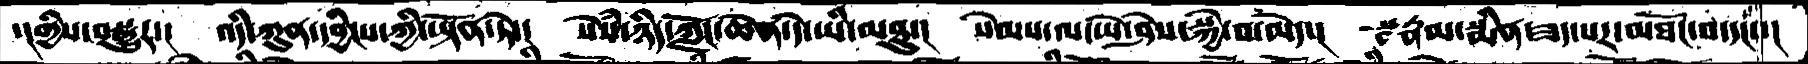་།གྱིས་བསྒྱུར་།  འདི་ཀུན་དབྱིངས་ཀྱི་ཡྟོན་ཏེ་།  སེཾས་ཉིད་ཀློང་ཆེན་དེ་ཡི་མཐུ་།  སེམས་ལ་ཡེ་ཤེས་སྐྱེ་བ་མེད་།  རྣམ་སྨིན་ཟད་པར་མཐོང་བ་དང་་།
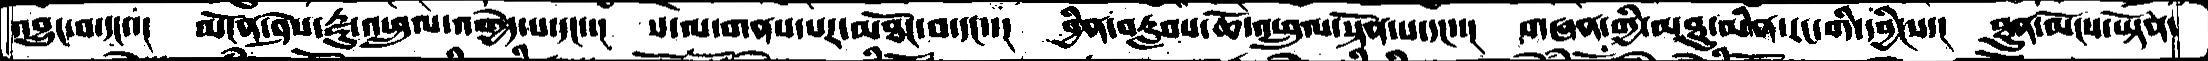འབྱུང་བ་དང་་།  མངོན་ཤེས་རྫུ་འཕྲུལ་འགྱེད་པ་དང་་།  ས་ལ་གནས་པར་མཐོང་བ་དང་་།  བྱིན་བརླབས་ཆོ་འཕྲུལ་སྟོན་པ་དང་་།  གཞན་གྱི་མཐུ་མིན་རང་གི་དབྱིངས་།  ཐུན་མོངས་ཡྟོན་
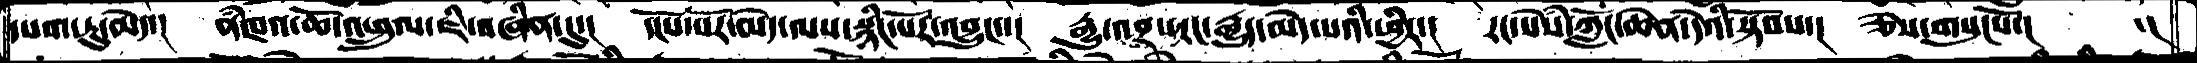དཔག་ཏུ་མེད་།  ནཾཁའ་ཆོ་འཕྲུལ་ཇི་བཞིན་དུ་།  དངོས་པོར་མེད་ལས་སྙིང་པོར་འབྱུང་།   རྒྱུ་འབྲས་ངང་རྒྱུད་མེད་པའི་ཕྱིར་།  རང་སེཾས་ཀློང་ཆེན་དེའི་སྟོབས་།  ཅེས་གསུངསོ་།    ་།
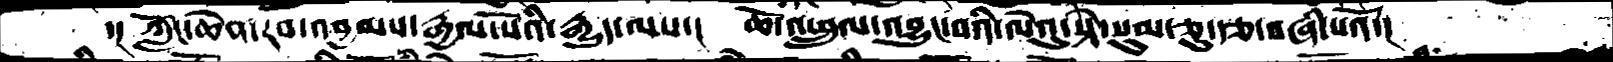་། ཀློང་ཆེན་རབ་འབྱམས་རྒྱལ་པོའི་རྒྱུད་ལས་།  ཆོ་འཕྲུལ་འབྱུང་བའི་ལེའུ་སྟེ་སུམ་ཅུ་རྩ་བཞི་པའོ་།
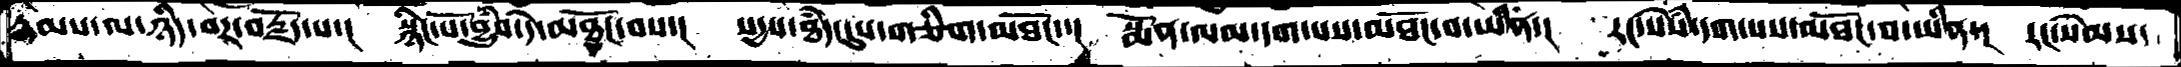རྣམས་ལ་ཉིད་བར་བརྗོད་པ་།  སྙིང་པོ་བྱུཾབ་དེ་མཐོང་བས་།  སདྱས་ཐཾད་དུས་གཅིག་མཐོང་།  སྨོན་ལམ་དག་པས་མཐོང་བ་ཡིན་།  རང་སེཾས་དག་པས་མཐོང་བ་ཡིན་།  རང་སེམས་
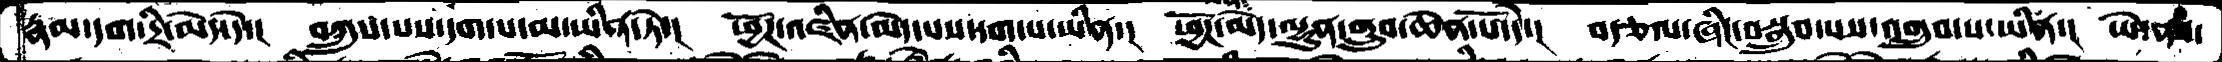རྣམ་དག་དྲི་མེད་དེ་།  བཀྲུས་པས་དག་པ་མ་ཡིན་ཏེ་།  ཕྱོཌ་འཛིན་མེད་པས་དག་པ་ཡིན་།  ཕྱོཌ་མེད་ལྷུན་གྲུབ་ཆེན་པོ་དེ་།  བརྩལ་ཞིང་བསྒྲུབ་པས་འགྲུབ་པ་ཡིན་།  ཡེ་ནས་
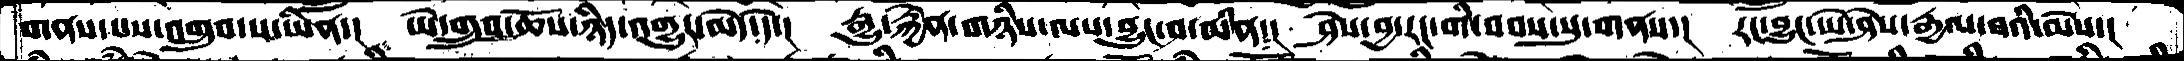གནས་པས་འགྲུབ་པ་ཡིན་།  ཡེ་གྲུབ་ཆོས་ཉིད་འགྱུར་མེད་དེ་།  རྒྱུ་རྐྱེན་གཉིས་ལས་བྱུང་བ་མིན་།   ཤེས་བྱ་རང་གི་བབས་སུ་གནས་།  རང་བྱུང་ཡེ་ཤེས་རྒྱལ་བའི་མེས་།
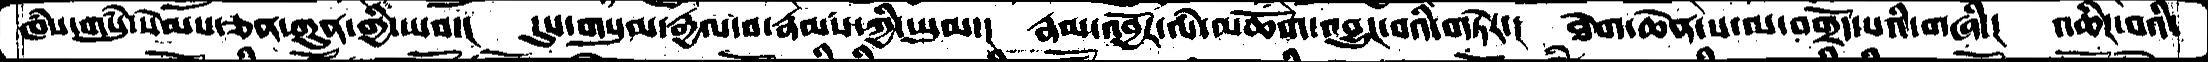ཁཾས་གསུཾ་སེམས་ཅན་ཀུན་གྱི་ཡབ་།  དུས་གསུམ་རྒྱལ་བ་རྣམས་ཀྱི་ཡུམ་།  རྣམ་འབྱོར་ལཾ་མཆོག་འབྱུང་བའི་གཏེར་།  ཐེག་ཆེན་ས་ལ་བགྲོད་པའི་གཞི་།  འཆིང་བའི་
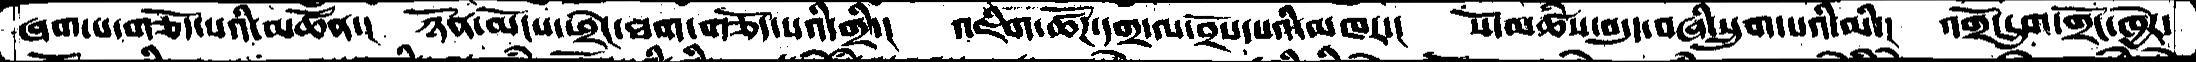ཞག་པ་གཅོད་པའི་མཚོན་།  ཉོན་མོངས་ཕྲེང་ཐག་གཅོད་པའི་གྲི་།  འཇིག་ཚོཌ་དགྲ་ལ་བྲོས་པའི་མཁར་།  སོ་མཚཾས་བདུད་བཞི་སྲུག་པའི་མི་།  འགྲོ་དྲུག་གྲོང་ཁྱེར་
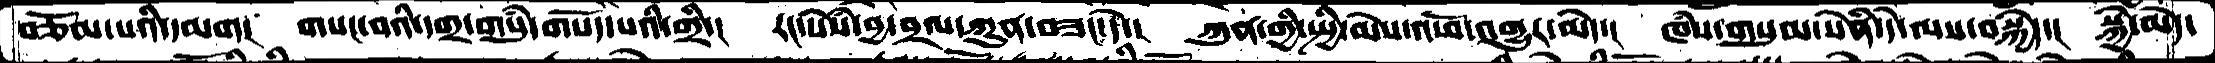བཅོམ་པའི་དམག།  གསང་བའི་དགྲ་གསུཾ་གསོད་པའི་གྲི་།  རང་སེཾས་བྱ་བྲལ་ཀུན་བཟང་དེ་།  ཀུན་གྱི་སྤྱི་མེས་འཕོ་འགྱུར་མེད་།  ཁཾས་གསུམ་སེཾན་དེ་ལས་བསྐྱེད་།  སྐྱེ་མེད་
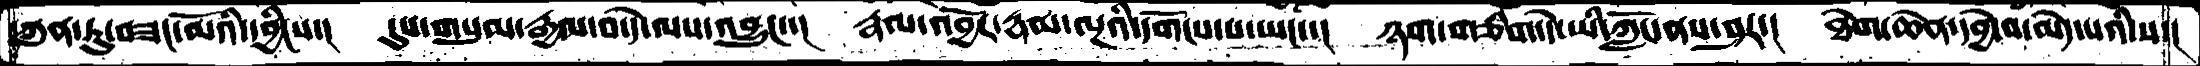ཀུནཏུ་བཟང་མོའི་དབྱིངས་།  དུས་གསུམ་རྒྱལ་བ་དེ་ལས་འབྱུང་་།  རྣལ་འབྱོར་རྣམ་ལྔའི་དགོངས་པ་ཡང་་།  ཉག་གཅིག་དེ་ཡི་ཀློང་ནས་ཤར་།  ཐེག་ཆེན་དབྱེ་བ་མེད་པའི་ས་།
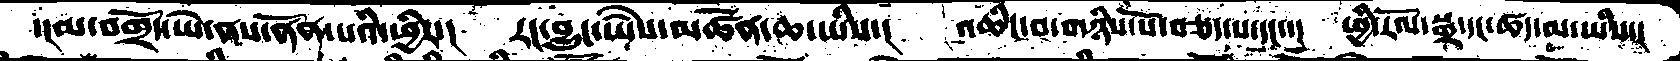་།མ་བགྲོད་ཡེ་ནས་ནོན་པའི་ཕྱིར་།  རང་བྱུང་ཡཻས་མཚོན་ཆ་ཡིས་།  འཆིང་བ་གཉིས་པོ་བཅད་པ་དང་་།  ཕྱི་རོལ་སྒྲ་དང་ཚད་མ་ཡིས་།
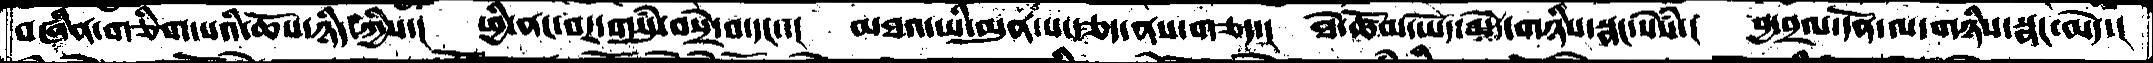བཞིན་གཅིག་པའི་ཆོས་ཉིད་ཀྱིས་།  ཕྱི་ནང་བར་གསུཾ་བསྲེ་བ་དང་་།  མཐའ་ཡི་མུན་པ་རྩད་ནས་གཅད་།  ཐེ་ཚོམ་ཡོད་མེད་གཉིས་སྣང་སེཾས་།  བྱ་བྲལ་དོན་ལ་གཉིས་སྣང་མེད་།
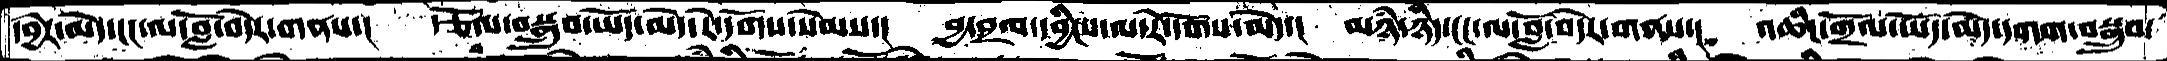དབྱེར་མེད་ངང་ལ་བློ་བདེར་གནས་།  རྩོལ་བསྒྲུབ་ཡོད་མེད་རེ་དོགས་སེམས་།  བྱ་བྲལ་དབྱིངས་ལ་རེ་དོགས་མེད་།  མཉཾ་ཉིད་ངང་ལ་བློ་བདེར་གནས་།  འཆིང་གྲོལ་ཡོད་མེད་དགག་བསྒྲུབ་
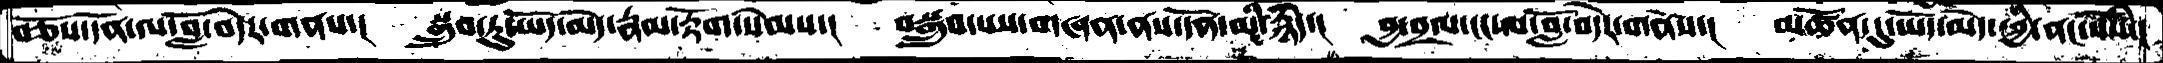བཅོས་དོན་ལ་བློ་བདེར་གནས་།   སྒྲུབ་ཏུ་ཡོད་མེད་རྣམ་རྟོག་སེམས་།   བསྒྲུབ་པས་གཞན་ནས་དོན་མི་རྙེད་།   བྱ་བྲལ་ངང་ལ་བློ་བདེར་གནས་།   མཚོན་དུ་ཡོད་མེད་ཕྱི་ནང་སེཾས་།
